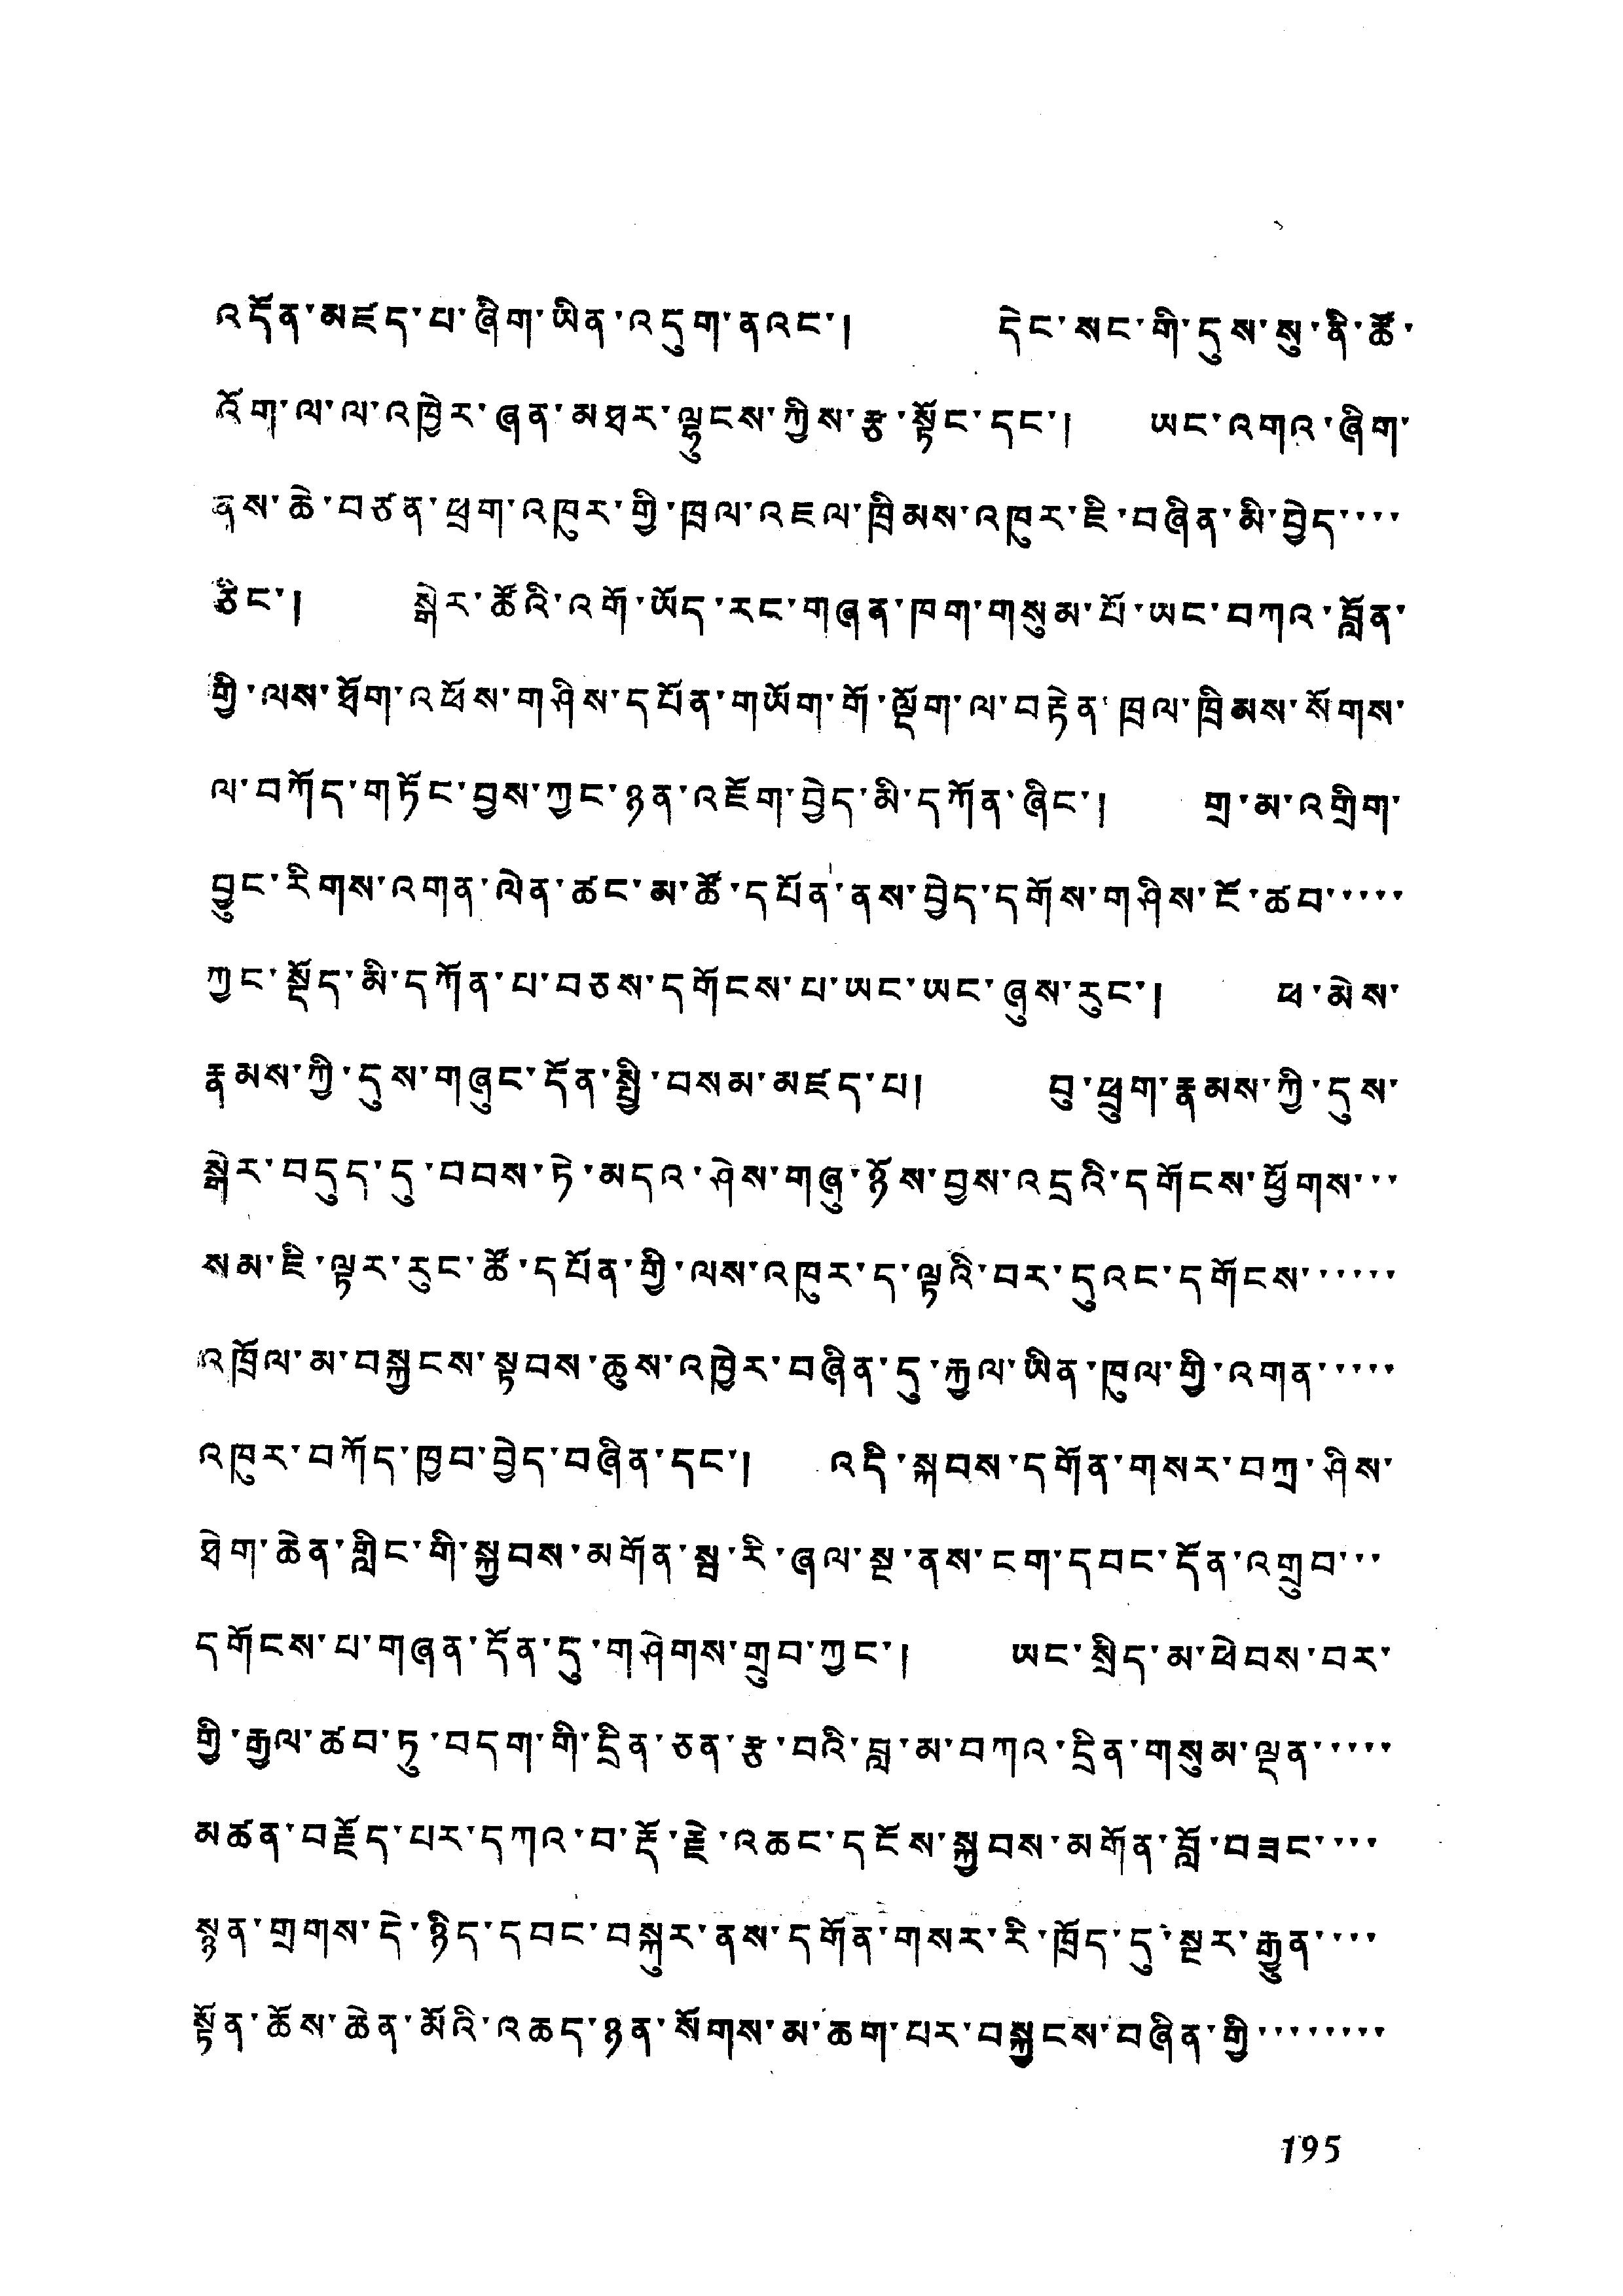འདོན་མཛད་པ་ཞིག་ཡིན་འདུག་ནའང་། དེང་སང་གི་དུས་སུ་ནི་ཚོ་
འོག་ལ་ལ་འཁྱེར་ཞན་མཐར་ལྷུངས་ཀྱིས་རྩ་སྟོང་དང་། ཡང་འགའ་ཞིག་
ནས་ཆེ་བཙན་ཕྲག་འཁུར་གྱི་ཁྲལ་འཇལ་ཁྲིམས་འཁུར་ཇི་བཞིན་མི་བྱེད་་་་
ཅིང་། སྒེར་ཚོའི་འགོ་ཡོད་རང་གཞན་ཁག་གསུམ་པོ་ཡང་བཀའ་བློན་
གྱི་ལས་ཐོག་འཕོས་གཤིས་དཔོན་གཡོག་གོ་ལྡོག་ལ་བརྟེན་ཁྲལ་ཁྲིམས་སོགས་
ལ་བཀོད་གཏོང་བྱས་ཀྱང་ཉན་འཇོག་བྱེད་མི་དཀོན་ཞིང་། གྲ་མ་འགྲིག་
བྱུང་རིགས་འགན་ལེན་ཚང་མ་ཚོ་དཔོན་ནས་བྱེད་དགོས་གཤིས་ངོ་ཚབ་་་་་
ཀྱང་སྡོད་མི་དཀོན་པ་བཅས་དགོངས་པ་ཡང་ཡང་ཞུས་རུང་། ཕ་མེས་
རྣམས་ཀྱི་དུས་གཞུང་དོན་སྤྱི་བསམ་མཛད་པ། བུ་ཕྲུག་རྣམས་ཀྱི་དུས་
སྒེར་བདུད་དུ་བབས་ཏེ་མདའ་ཤེས་གཞུ་ཉོས་བྱས་འདྲའི་དགོངས་ཕྱོགས་་་
སམ་ཇི་ལྟར་རུང་ཚོ་དཔོན་གྱི་ལས་འཁུར་ད་ལྟའི་བར་དུའང་དགོངས་་་་་་
འཁྲོལ་མ་བསྐྱངས་སྟབས་ཆུས་འཁྱེར་བཞིན་དུ་རྐྱལ་ཡིན་ཁུལ་གྱི་འགན་་་་་
འཁུར་བཀོད་ཁྱབ་བྱེད་བཞིན་དང་། འདི་སྐབས་དགོན་གསར་བཀྲ་ཤིས་
ཐེག་ཆེན་གླིང་གི་སྐྱབས་མགོན་སྦ་རི་ཞལ་སྔ་ནས་ངག་དབང་དོན་འགྲུབ་་་
དགོངས་པ་གཞན་དོན་དུ་གཤེགས་གྲུབ་ཀྱང་། ཡང་སྲིད་མ་ཕེབས་བར་
གྱི་རྒྱལ་ཚབ་ཏུ་བདག་གི་དྲིན་ཅན་རྩ་བའི་བླ་མ་བཀའ་དྲིན་གསུམ་ལྡན་་་་་
མཚན་བརྗོད་པར་དཀའ་བ་རྡོ་རྗེ་འཆང་དངོས་སྐྱབས་མགོན་བློ་བཟང་་་་
སྙན་གྲགས་དེ་ཉིད་དབང་བསྐུར་ནས་དགོན་གསར་རི་ཁྲོད་དུ་སྔར་རྒྱུན་་་་
སྟོན་ཆོས་ཆེན་མོའི་འཆད་ཉན་སོགས་མ་ཆགས་པར་བསྐྱངས་བཞིན་གྱི་་་་་་་་
195
